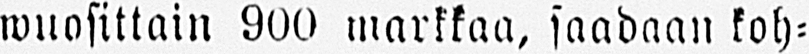wuosittain 900 markkaa, saadaan koh-
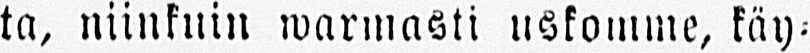ta, niinkuin warmasti uskomme, käy-
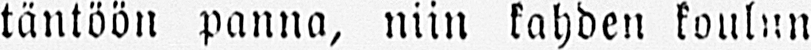täntöön panna, niin kahden koulun
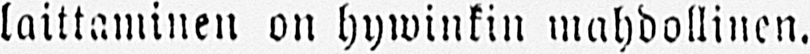laittaminen on hywinkin mahdollinen.
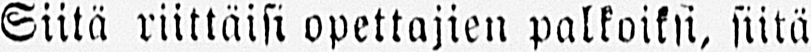Siitä riittäisi opettajien palkoiksi, siitä
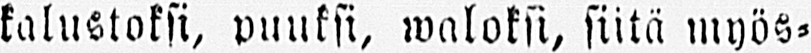kalustoksi, puuksi, waloksi, siitä myös-
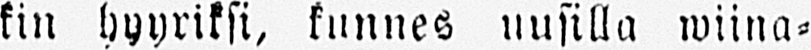kin hyyriksi, kunnes uusilla wiina-
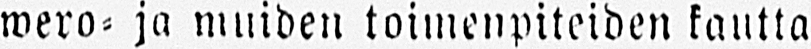wero- ja muiden toimenpiteiden kautta
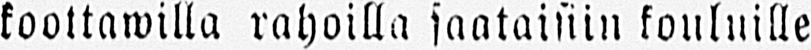koottawilla rahoilla saataisiin kouluille
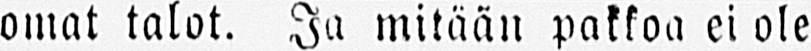omat talot. Ja mitään pakkoa ei ole
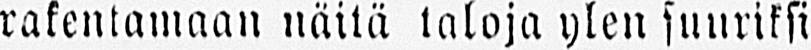rakentamaan näitä taloja ylen suuriksi
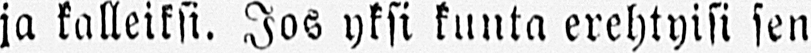ja kulleiksi. Jos yksi kunta erehtyisi sen
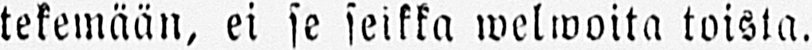tekemään, ei se seikka welwoita toista.
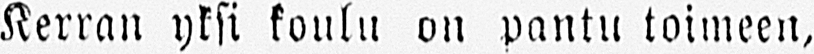Kerran yksi koulu on pantu toimeen,
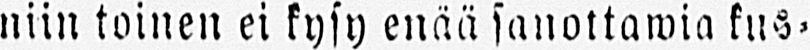niin toinen ei kysy enää sanottawia kus-
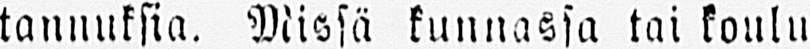tannuksia. Missä kunnassa tai koulu
